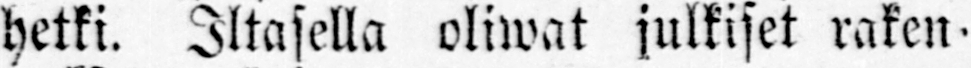hetki. Iltasella oliwat julkiset raken-
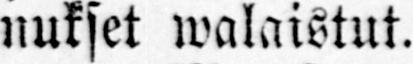nukset walaistut.
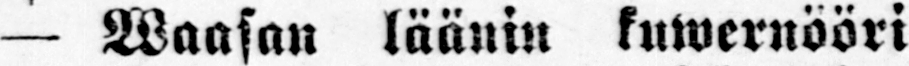— Waasan läänin kuwernööri
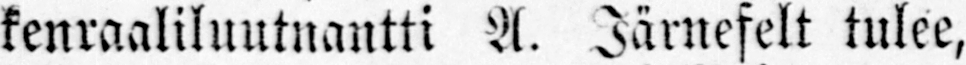kenraaliluutnantti A. Järnefelt tulee,
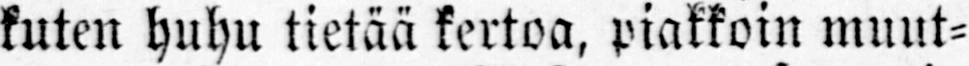kuten huhu tietää kertoa, piakkoin muut-
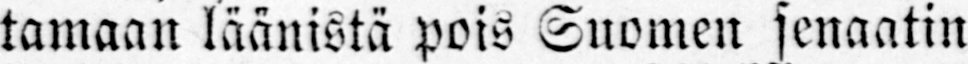tamaan läänistä pois Suomen senaatin
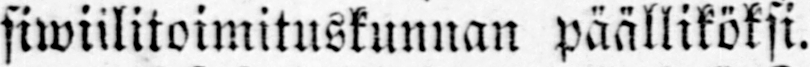siwiilitoimituskunnan päälliköksi.
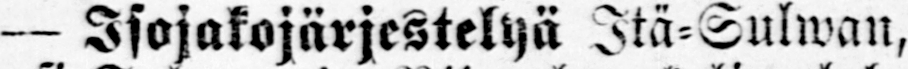— Isojakojärjestelyä Itä-Sulwan,
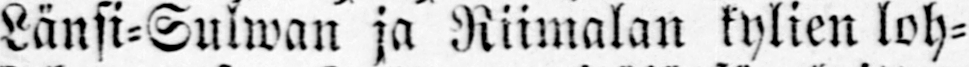Länsi-Suiwan ja Riimalan kylien loh-
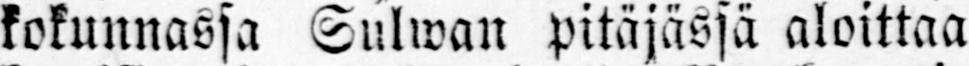kokunnassa Sulwan pitäjässä aloittaa
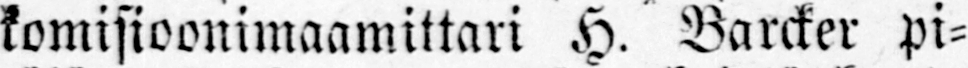komisioonimaamittari H. Barcker pi-
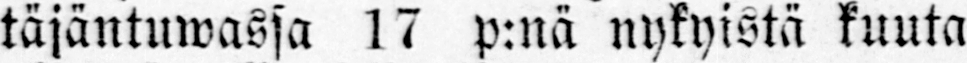täjäntuwassa 17 p:nä nykyistä kuuta
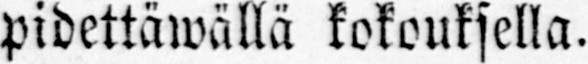pidettäwällä kokouksella.
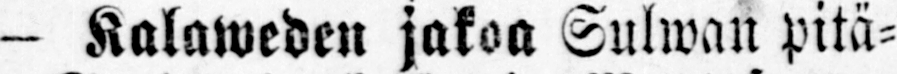— Kalaweden jakoa Sulwan pitä-
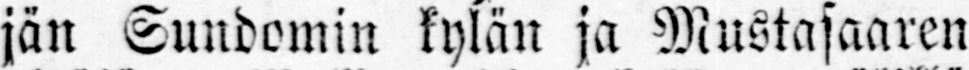jän Sundomin kylän ja Mustasaaren
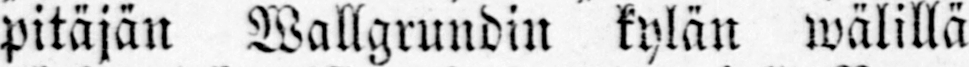pitäjän Wallgrundin kylän wälillä
